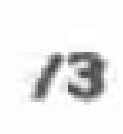13
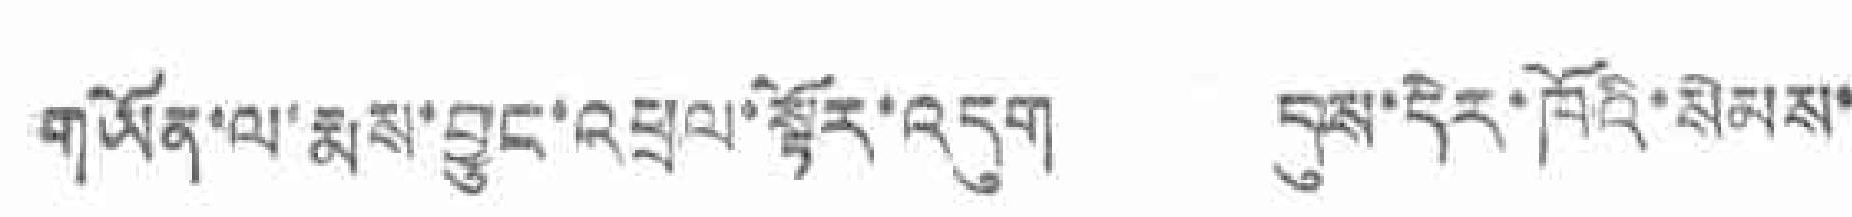གཡོན་ལ་རྨས་བྱུང་འཕྲལ་སྟོར་འདུག དུས་དེར་ཁོའི་སེམས་
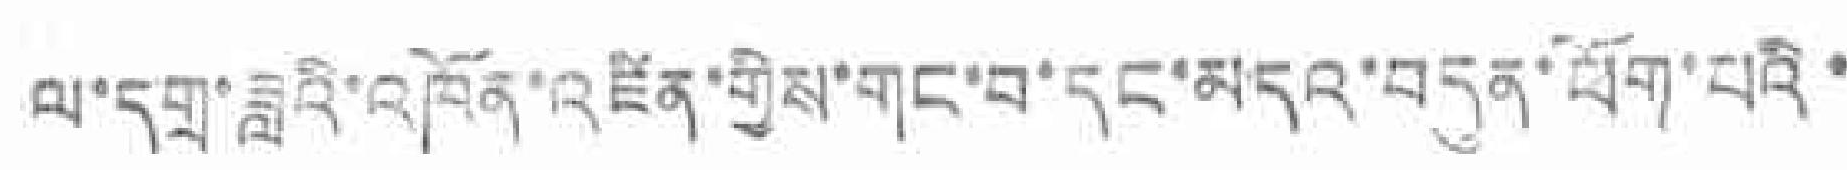ལ་དགྲ་ཟླའི་མཁོན་འཛིན་གྱིས་གང་བ་དང་མདའ་བདུན་ཕོག་པའི་
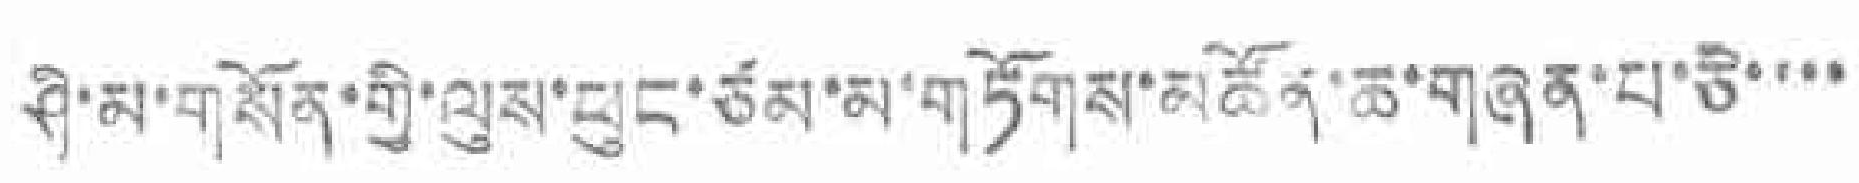ཤི་མ་གསོན་གྱི་ལུས་ཕུང་ཙམ་མ་གཏོགས་མཚོན་ཆ་གཉན་པ་ཅི་་་་
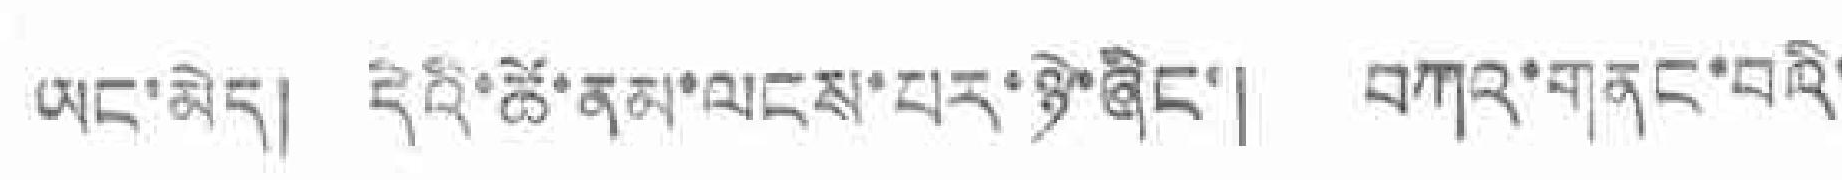ཡང་མེད། དེའི་ཚེ་ནམ་ལངས་པར་ཉེ་ཞིང་། བཀའ་གནང་བའི་
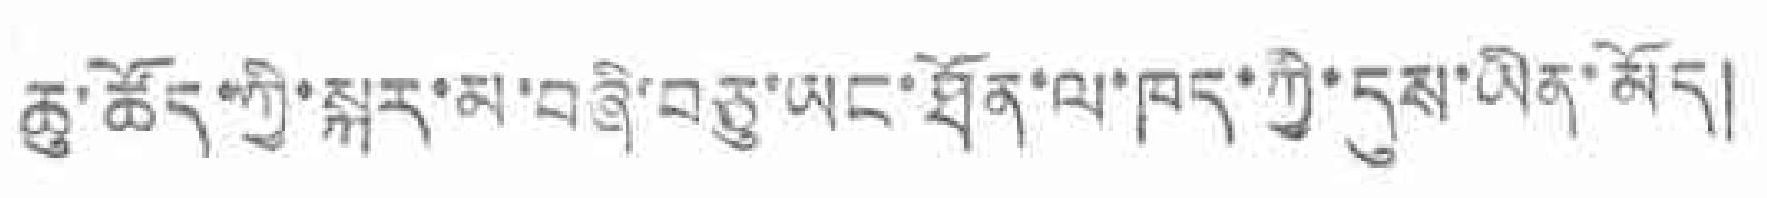ཆུ་ཚོད་ཀྱི་སྐར་མ་བཞི་བཅུ་ཡང་ཐོན་ལ་ཁད་ཀྱི་དུས་ཡིན་མོད།
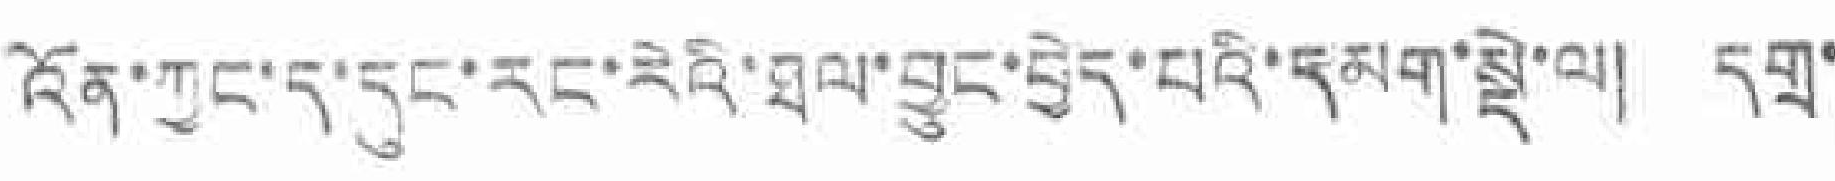འོན་ཀྱང་ད་དུང་རང་རེའ་ཐལ་བྱུང་བྱེད་པའི་དམག་སྡེ་ལ། དགྲ་
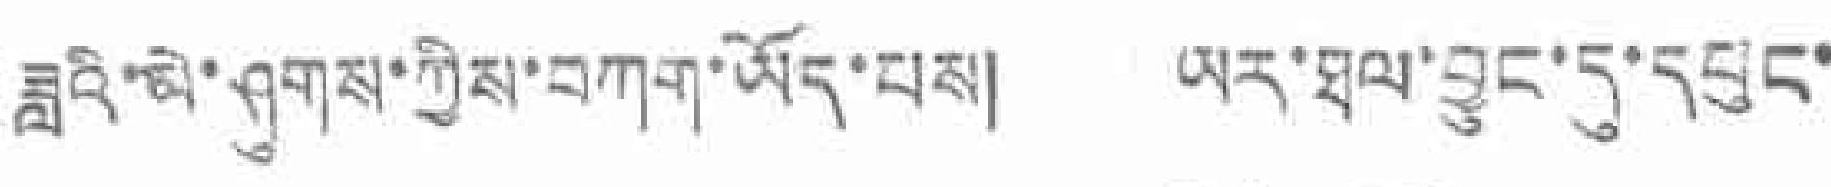ཟླའི་མེ་ཤུགས་ཀྱིས་བཀག་ཡོད་པས། ཡར་ཐལ་བྱུང་དུ་དཔུང་
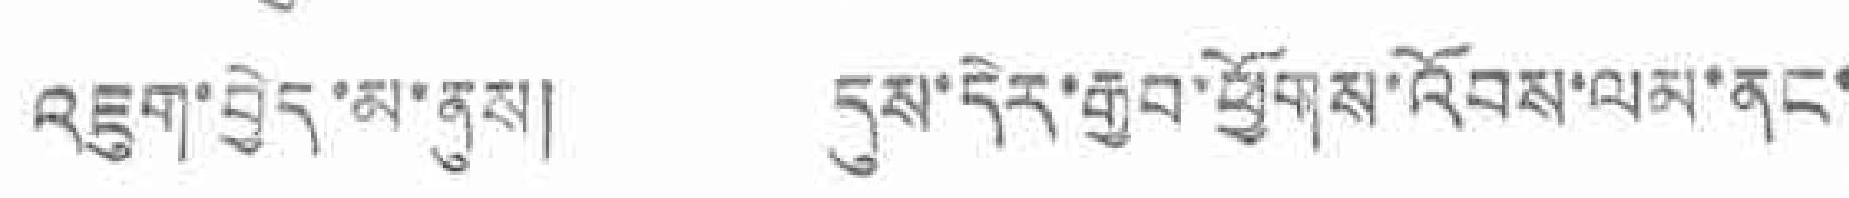འཇུག་བྱེད་མ་ནུས། དུས་དེར་རྒྱབ་ཕྱོགས་འོབས་ལམ་ནང་
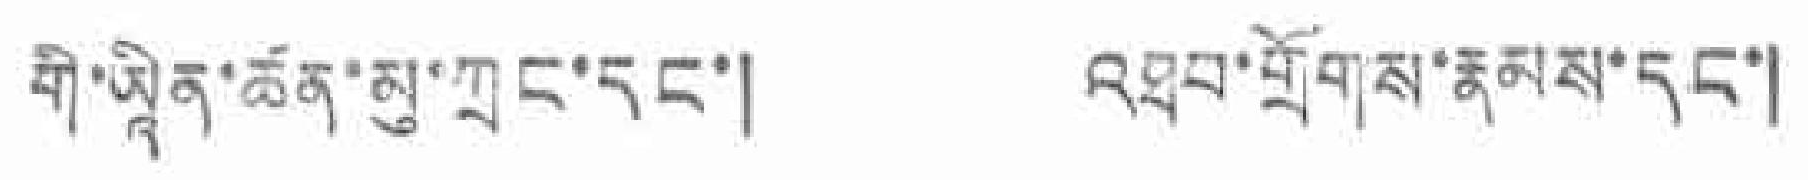གྱི་ཡཱིན་ཆོན་མུ་ཀྲང་དང་། འཐབ་གྲོགས་རྣམས་དང་།
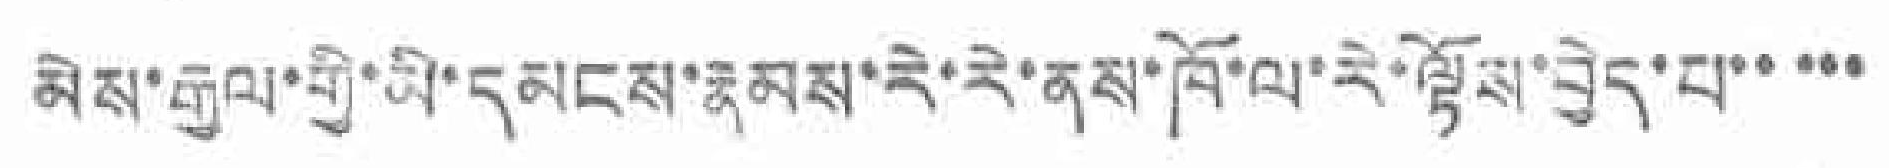མེས་རྒྱལ་གྱི་མི་དམངས་རྣམས་རེ་རེ་ནས་ཁོ་ལ་རེ་ལྟོས་བྱེད་པ་་་་་
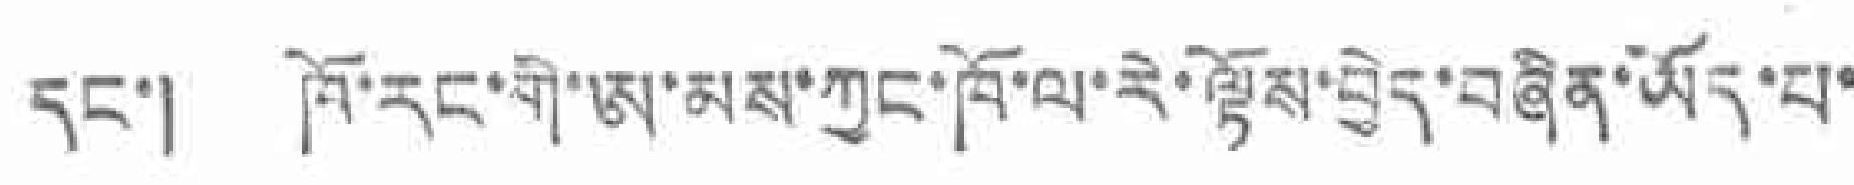དང་། ཁོ་རང་གི་ཨ་མས་ཀྱང་ཁོ་ལ་རེ་ལྟོས་བྱེད་བཞིན་ཡོད་པ་
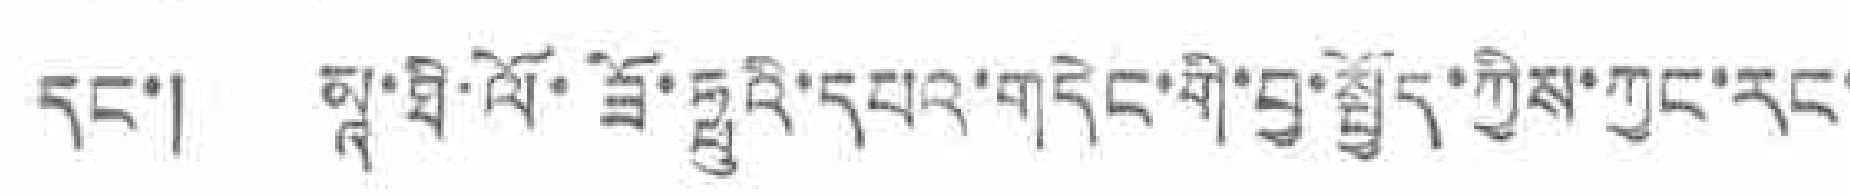དང་། མཱ་ཐི་ལོ་ཟོ་ཧྥུའི་དཔའ་གདེང་གི་བྱ་སྦྱོད་ཀྱིས་ཀྱང་དང་
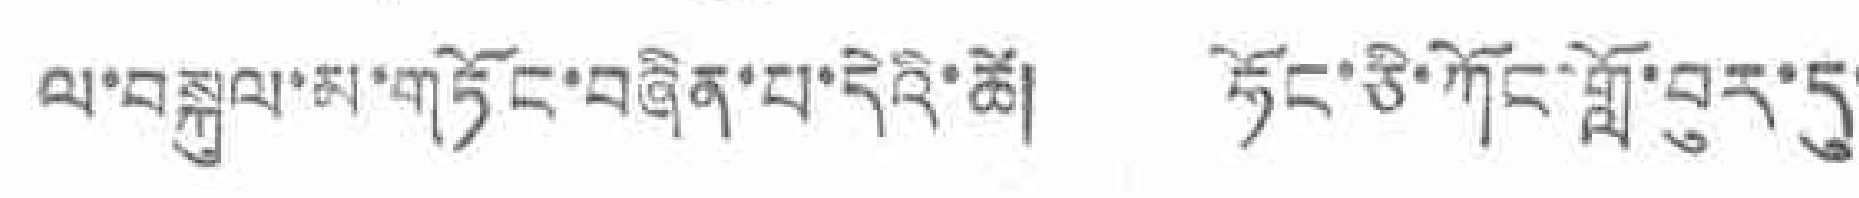ལ་བསྐུལ་མ་གཏོང་བཞིན་པ་དེའི་ཚེ། ཧོང་ཅི་ཀོང་གློ་བུར་དུ་
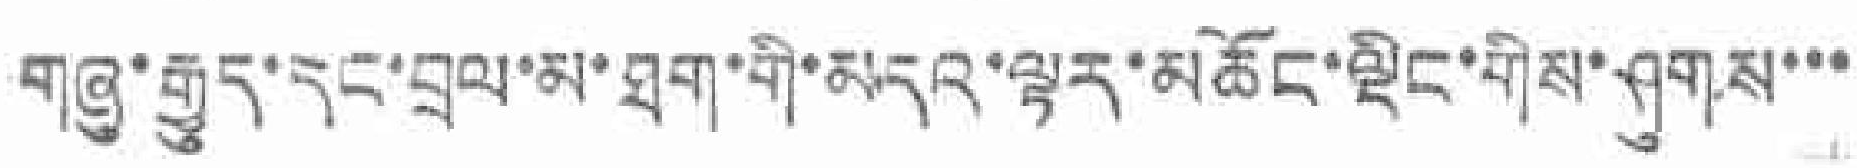གཞུ་རྒྱུད་དང་བྲལ་མ་ཐག་གི་མདའ་ལྟར་མཆོང་ལྡིང་གིས་ཤུགས་་་
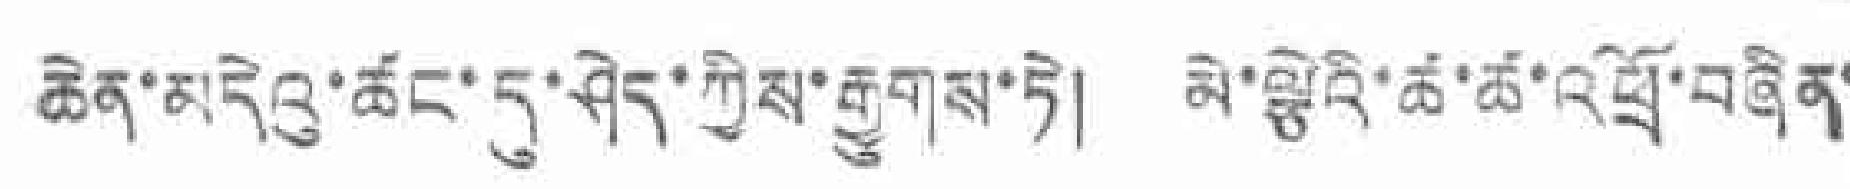ཆེན་མདེའུ་ཚང་དུ་ཤེད་ཀྱིས་རྒྱུགས་ཏེ། མེ་ལྕེའི་ཚ་ཚ་འཕྲོ་བཞིན་
